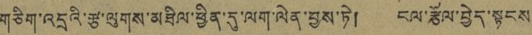གཅིག་འདྲའི་རྩ་ལུགས་མཐིལ་ཕྱིན་དུ་ལག་ལེན་བྱས་ཏེ། ངལ་རྩོལ་བྱེད་སྟངས་
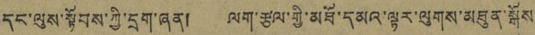དང་ལུས་སྟོབས་ཀྱི་དྲག་ཞན། ལག་རྩལ་གྱི་མཐོ་དམའ་ལྟར་ལུགས་མཐུན་སྒོས་
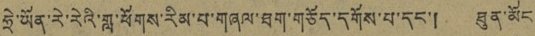ཧྲེ་ཡོན་རེ་རེའི་གླ་ཕོགས་རིམ་བ་གཞལ་ཐག་གཅོད་དགོས་པ་དང་། ཐུན་མོང་
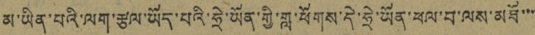མ་ཡིན་པའི་ལག་རྩལ་ཡོད་པའི་ཧྲེ་ཡོན་གྱི་གླ་ཕོགས་དེ་ཧྲེ་ཡོན་ཕལ་བ་ལས་མཐོ་་་་
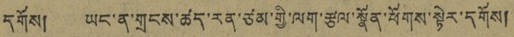དགོས། ཡང་ན་གྲངས་ཚད་རན་ཙམ་གྱི་ལག་རྩལ་སྣོན་ཕོགས་སྟེར་དགོས།
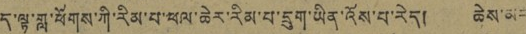ད་ལྟ་གླ་ཕོགས་ཀི་རིམ་པ་ཕལ་ཆེར་རིམ་པ་དྲུག་ཡིན་འོས་པ་རེད། ཆེས་མང་་
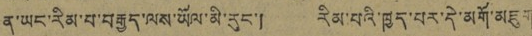ན་ཡང་རིམ་པ་བརྒྱད་ལས་ཡོལ་མི་རུང་། རིམ་པའི་ཁྱད་པར་དེ་མགོ་མཇུག་
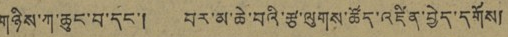གཉིས་ཀ་ཆུང་བ་དང་། བར་མ་ཆེ་བའི་རྩ་ལུགས་ཚོད་འཛིན་བྱེད་དགོས།
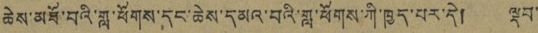ཆེས་མཐོ་བའི་གླ་ཕོགས་དང་ཆེས་དམའ་བའི་གླ་ཕོགས་ཀི་ཁྱད་པར་དེ། ལྡབ་
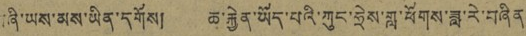བཞི་ཡས་མས་ཡིན་དགོས། ཆ་རྐྱེན་ཡོད་པའི་ཀུང་ཧྲེས་གླ་ཕོགས་ཟླ་རེ་བཞིན་
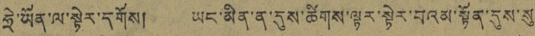ཧྲེ་ཡོན་ལ་སྟེར་དགོས། ཡང་མིན་ན་དུས་ཚིགས་ལྟར་སྟེར་བའམ་སྟོན་དུས་སུ་
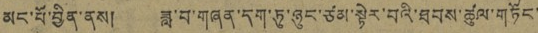མང་པོ་བྱིན་ནས། ཟླ་བ་གཞན་དག་ཏུ་ཉུང་ཙམ་སྟེར་བའི་ཐབས་ཚུལ་གཏོང་
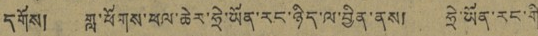དགོས། གླ་ཕོགས་ཕལ་ཆེར་ཧྲེ་ཡོན་རང་ཉིད་ལ་བྱིན་ནས། ཧྲེ་ཡོན་རང་གི
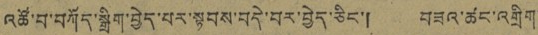འཚོ་བ་བཀོད་སྒྲིག་བྱེད་པར་སྟབས་བདེ་བར་བྱེད་ཅིང་། བཟའ་ཚང་འགྲིག་
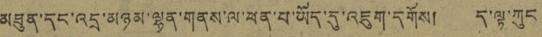མཐུན་དང་འདྲ་མཉམ་ལྷན་གནས་ལ་ཕན་པ་ཡོད་དུ་འཇུག་དགོས། ད་ལྟར་ཀུང
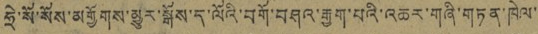ཧྲེ་སོ་སོས་མགྱོགས་མྱུར་སྒོས་ད་ལོའི་བགོ་བཤའ་རྒྱག་པའི་འཆར་གཞི་གཏན་ཁེལ་་
